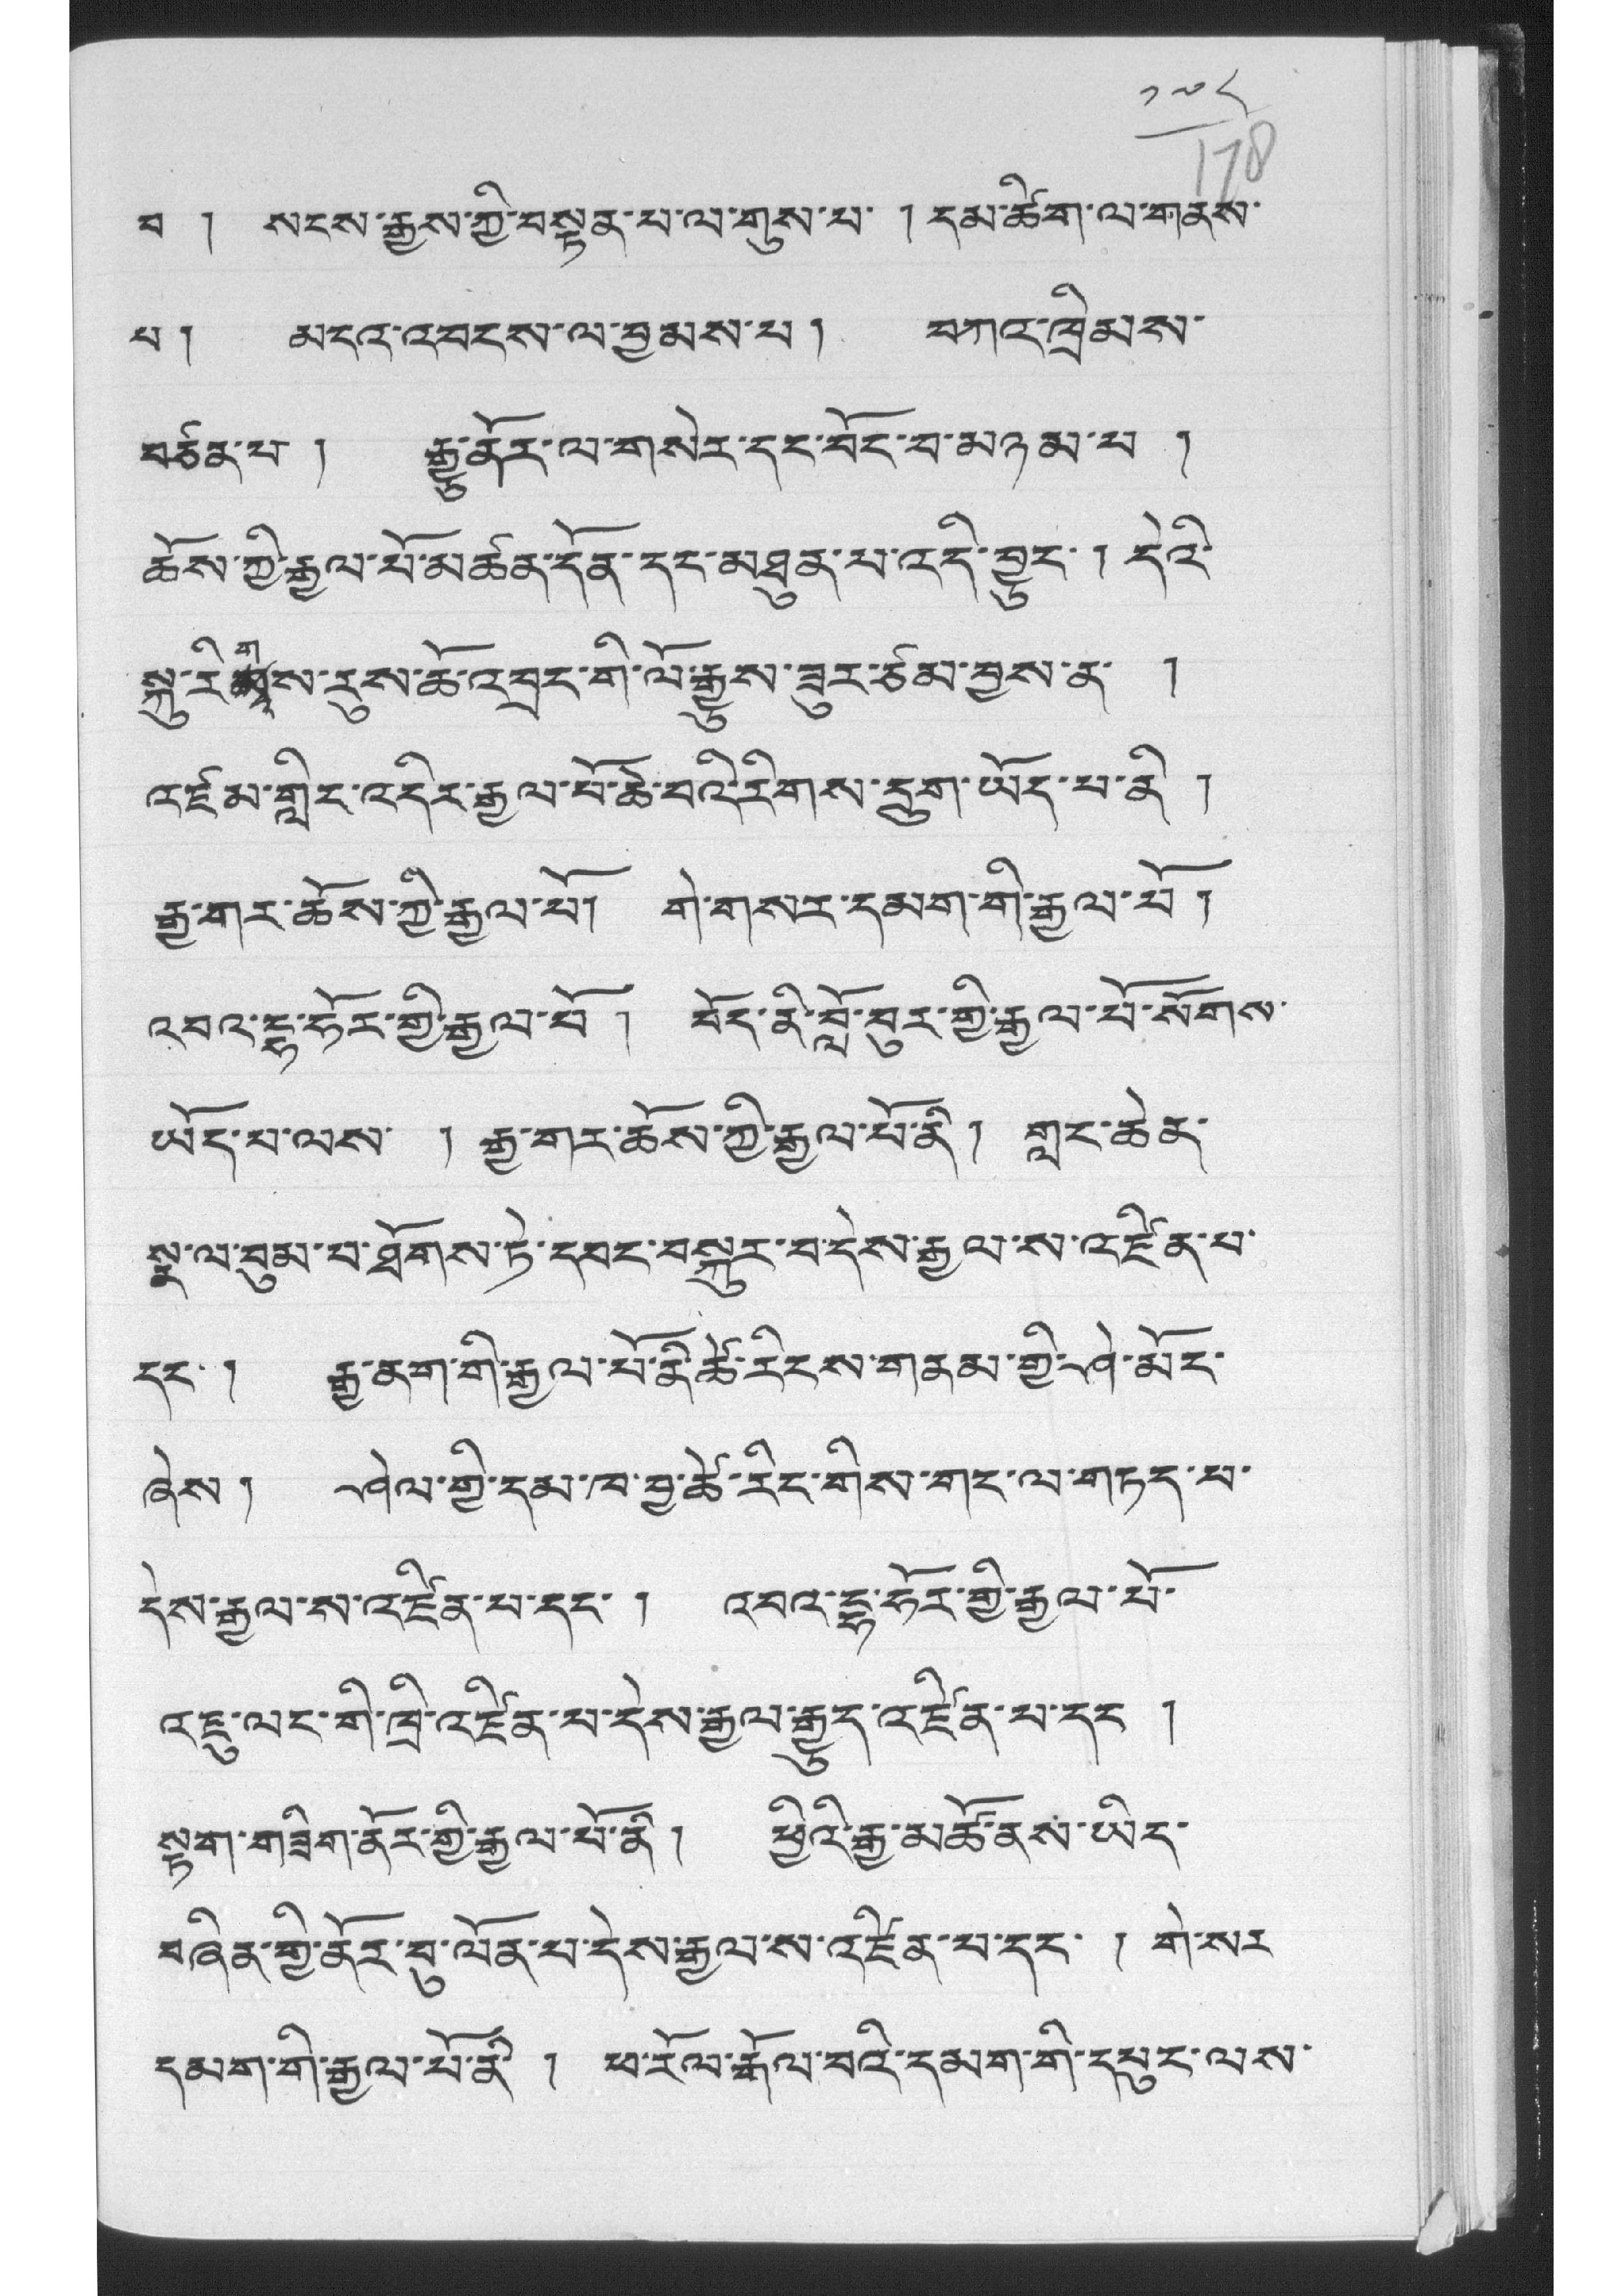༡༧༨
བ ། སངས་རྒྱུས་ཀྱི་བསྟན་པ་ལ་གུས་པ་ ། དམ་ཚིག་ལ་གནས་
པ། མངའ་འབངས་ལ་བྱམས་པ། བཀའ་ཁྲིམས་
བཙན་པ ། རྒྱུ་ནོར་ལ་གསེར་དང་བོད་པ་མཉམ་པ །
ཆོས་ཀྱི་རྒྱལ་པོ་མཚན་དོན་དང་མཐུན་པ་འདི་བྱུང་། དེའི་
སྐུ་རིགམས་རུས་ཆོ་འབྲང་གི་ལོ་རྒྱུས་ཟུར་ཙམ་བྱས་ན་ །
འཛམ་གླིང་འདིར་རྒྱལ་པོ་ཆེ་བའི་རིགས་དྲུག་ཡོད་པ་ནི །
རྒྱ་གར་ཆོས་ཀྱི་རྒྱལ་པོ། གེ་གསར་དམག་གི་རྒྱལ་པོ །
འབའ་དྷ་ཧོར་གྱི་རྒྱལ་པོ། བོད་ནི་བློ་བུར་གྱི་རྒྱལ་པོ་སོགས་
ཡོད་པ་ལས་ ། རྒྱ་གར་ཆོས་ཀྱི་རྒྱལ་པོ་ནི། གླང་ཆེན་
སྣ་ལ་བུམ་པ་ཐོགས་ཏེ་དབང་བསྐུར་བ་དེས་རྒྱལ་ས་འཛིན་པ་
དང་། རྒྱ་ནག་གི་རྒྱལ་པོ་ནེ་ཚེ་རིངས་གནམ་གྱི་ཤེ་མོང་
ཞེས། ཤེལ་གྱི་དམ་ཁ་བྱ་ཚེ་རིང་གིས་གང་ལ་གཏད་པ་
དེས་རྒྱལ་ས་འཛིན་པ་དང་། འབའ་དྷ་ཧོར་གྱི་རྒྱལ་པོ་
འཇུ་ལང་གི་ཁྲི་འཛིན་པ་དེས་རྒྱལ་རྒྱུད་འཛིན་པ་དང །
སྙག་གཟིག་ནོར་གྱི་རྒྱལ་པོ་ནི། ཕྱིའི་རྒྱ་མཚོ་ནས་ཡིད་
བཞིན་གྱི་ནོར་བུ་ལོན་པ་དེས་རྒྱལ་ས་འཛིན་པ་དང་ ། གེ་སར་
དམག་གི་རྒྱལ་པོ་ནི ། ཕ་རོལ་རྒོལ་བའི་དམག་གི་དཔུང་ལས་
